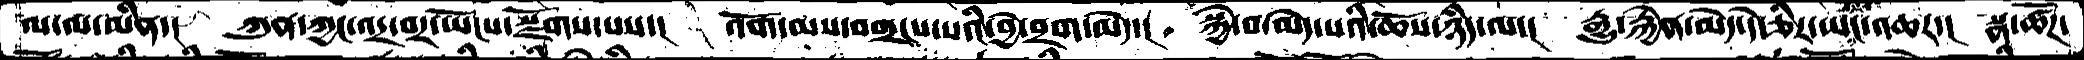ལ་ལ་མིན་།  ཀུན་ཀྱང་འདྲ་བར་ཡོངས་སྫོགས་པས་།  འོག་མས་བགྲངས་པའི་བྱེ་བྲག་མེད་།  སྐྱེ་བ་མེད་པའི་ཆོས་ཉིད་ལ་།  རྒྱུ་རྐྱེན་མེད་དེ་ཅིར་ཡང་འཆར་།  སྣ་ཚོཌ་
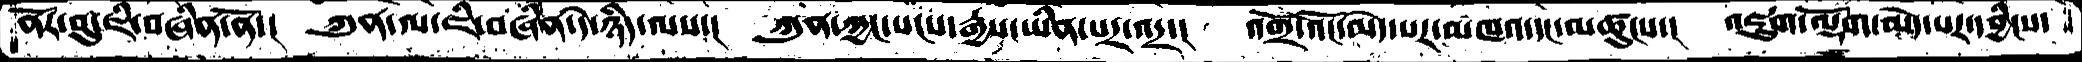ནོར་བུ་ཇི་བཞིན་ནོ་།   ཀུན་ལ་ཇི་བཞིན་དེ་ཉིད་ལས་།   ཀུན་ཀྱང་སངས་རྒྱས་ཡིན་པར་འདྲ་།   འགྲོ་འོང་མེད་པར་མཁའ་དང་མཚུངས་།   འཇུག་ལྡོག་མེད་པར་དབྱིངས་
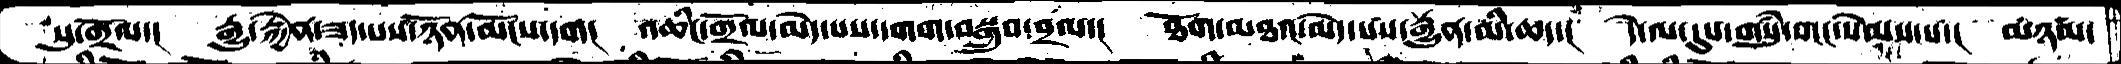སུ་གྲོལ་།   རྒྱུ་རྐྱེན་ཟད་པས་ཉོན་མོངས་དག།   འཆིང་གྲོལ་མེད་པས་དགག་བསྒྲུབ་བྲལ་།   ཐོག་མཐའ་མེད་པས་རྒྱུན་མི་ཆད་།   དེ་ལ་དུས་གསུཾ་གང་སེམས་པ་།   མཉམ་
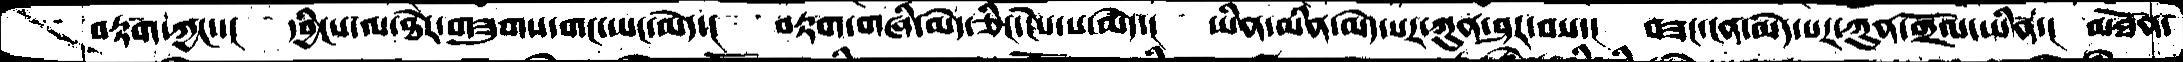བརྟག་ཀྱང་་།   དབྱིངས་ལ་ཐེར་གཟུགས་གང་ཡང་མེད་།   བརྟག་གཞི་མེད་ཅིང་ངེས་པ་མེད་།   ཡིན་མིན་མེད་པར་ཀུན་ཤར་བས་།   བཟང་ངན་མེད་པར་ཀུན་གྲོལ་ཡིན་།  མཐོན་
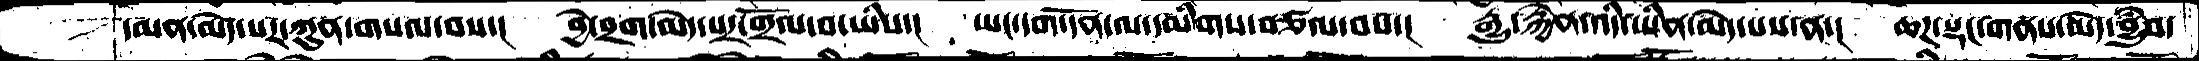དམན་མེད་པར་ཀུན་གསལ་བས་།   བྱེ་བྲག་མེད་པར་གྲོལ་བ་ཡིས་།   ཡང་དག་དོན་ལ་དམིགས་བཙལ་བས་།    རྒྱུ་རྐྱེན་འདི་ཡིན་མེད་པས་ན་།   ཆཌ་སྡང་གནས་མེད་བྱུཾབ་
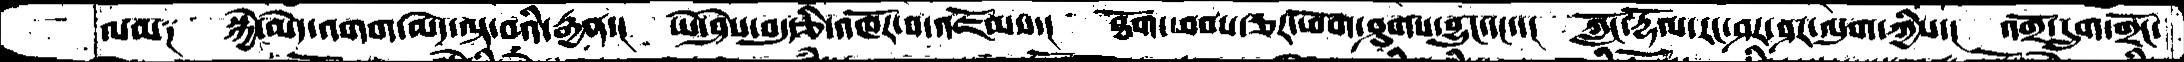ལམ༑  སྐྱེ་མེད་འགག་མེད་ལྟ་བའི་རྒྱན་།  ཡེ་ཤེས་བདུརྩི་འཁོར་བ་འཇོམས་།  ཐོག་ཕབས་ཅར་ཕོག་ཤུགས་བྱུང་དང་་།  ཀློང་རྡོལ་རང་ཤར་ཤར་ལུག་ཀྱིས་།  འགྲོ་དྲུག་གྲོང་
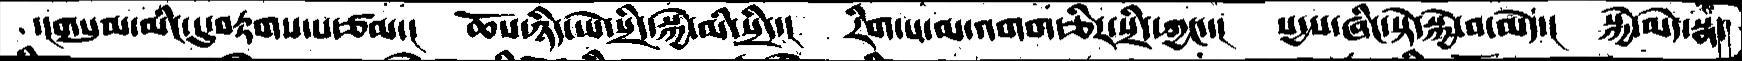་།གསུམ་མིང་དུ་བརྟགས་པ་ཙམ་།  ཆོས་ཉིད་ཡེ་སྲིད་སྐྱེ་མི་སྲིད་།  རིག་པ་མ་འགག་ཅིར་སྲིད་ཀྱང་་།  སདྱས་ཞིང་སྟེ་སྐྱེ་བ་མེད་།  སྐྱེ་མེད་སྣ་
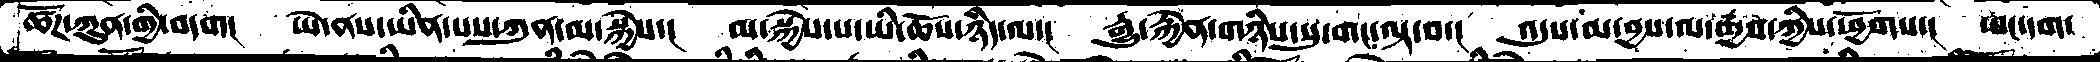ཚོཌ་ཀུན་གྱི་བདག།  ཡེ་ནས་ཡིན་པས་ཀུན་མ་སྐྱེས་།  མ་སྐྱེས་པ་ཡི་ཆོས་ཉིད་ལ་།  རྒྱུ་རྐྱེན་གཉིས་སུ་གང་ལྟ་བ་།  འདུས་མ་བྱས་ལ་རྒྱབ་ཀྱིས་ཕྱོགས་།  ཡང་དག་
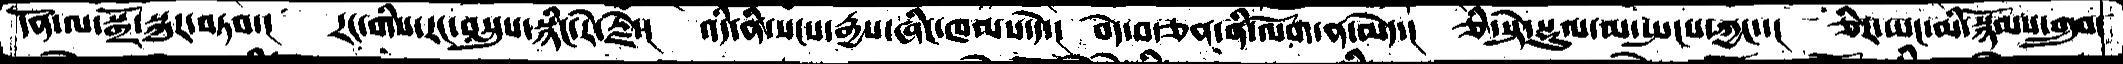དོན་ལ་སྒྲོ་སྐུར་བཏབ་།  རང་གིས་རང་བསླུས་སྙིང་རེ་རྗེ་།  འདི་ནི་སངས་རྒྱས་ཞིང་ཁམས་དེ་།  བདེ་བ་ཅན་ནི་ལོག་ན་མེད་།  ཅི་སྟེ་སྡུལ་མ་སྤངས་ཀྱང་་།  ཅིར་ཡང་མི་སྙོམས་གྲུབ་
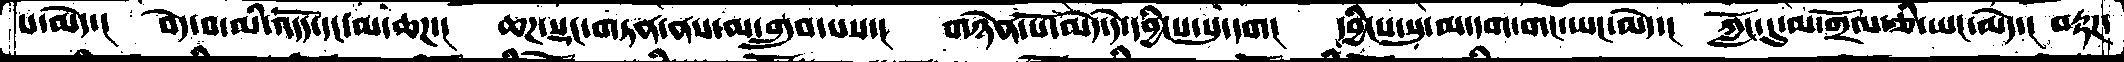པ་མེད་།  བདེ་བ་མི་འདོད་དང་མ་ཆཌ་།  ཆཌ་སྡང་གཏན་ནས་མ་གྲུབ་པས་།  གཉེན་པོ་མེད་དེ་དབྱིངས་སུ་དག།   དབྱིངས་སུ་མ་དག་གང་ཡང་མེད་།  ཀློང་དུ་མ་གྲོལ་ཅི་ཡང་མེད་།  བརྟཌ་
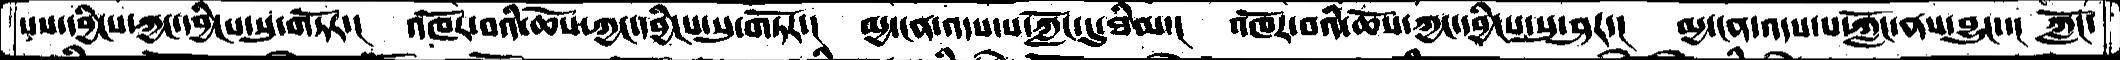པས་དབྱིངས་ཀྱང་དབྱིངས་སུ་གཏོར་།  འཁོར་བའི་ཆོས་ཀྱང་དབྱིངས་སུ་གཏོར་།  མྱ་ངན་འདས་པ་ཀློང་དུ་ཐིམ་།  འཁོར་བའི་ཆོས་ཀྱང་དབྱིངས་སུ་ཤར་།  མྱ་ངན་འདས་པ་ཀློང་ནས་བྱུང་་།  ཀློང་
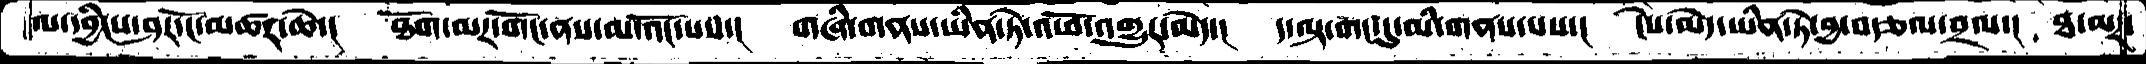ལ་དབྱིངས་ཤར་ངོ་མཚར་ཆེ་།  ཐོག་མར་གོང་ནས་མ་འོང་པས་།  གཞི་གནས་ཡིན་ཏེ་འཕོ་འགྱུར་མེད་།  ད་ལྟ་གང་དུ་མི་གནས་པས་།  ངེས་མེད་ཡིན་ཏེ་བྱ་བརྩལ་བྲལ་།  ཐ་མར་
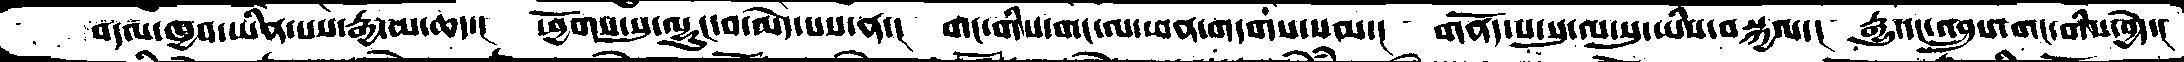བདལ་ཁྱབ་ཡིན་པས་རྒྱ་མ་ཆད་།  ཕྱོགས་སུ་ལྷུང་བ་མེད་པས་ན་།  གང་གིས་གང་ལ་ཕན་གདགས་སམ་།  གནོད་པ་སུ་ལ་སུ་ཡིས་བསྐྱལ་།  རྒྱུ་དང་འབྲུས་གང་གིས་བྱེད་།
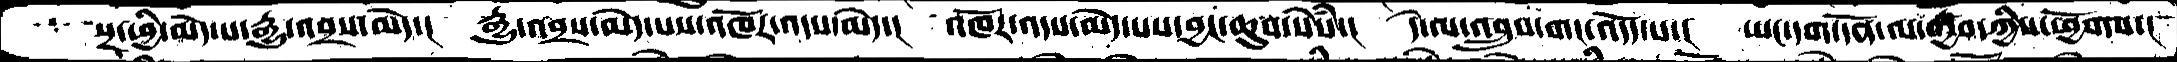སྔ་ཕྱི་མེད་པ་རྒྱུ་འབྲས་མེད་།   རྒྱུ་འབྲས་མེད་པས་འཁོར་འདས་མེད་།   འཁོར་འདས་མེད་པས་བྱང་ཆུབ་སེསཾ་།   དེ་ལ་འབྲུས་གང་འདོད་པ་།    ཡང་དག་དོན་ལ་རྒྱབ་ཀྱིས་ཕྱོགས་།
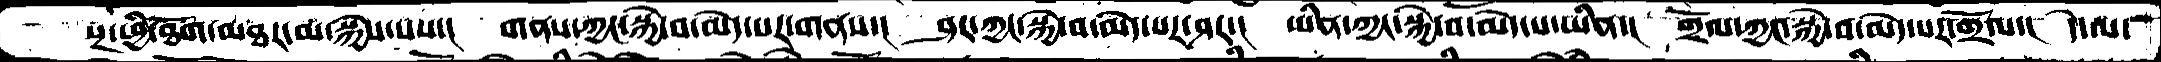སྔ་ཕྱི་ཐོག་མཐར་མ་སྐྱེས་པས་།   གནས་ཀྱང་སྐྱེ་བ་མེད་པར་གནས་།   ཤར་ཀྱང་སྐྱེ་བ་མེད་པར་ཤར་།   ཡིན་ཀྱང་སྐྱེ་བ་མེད་པ་ཡིན་།   གྲོལ་ཀྱང་སྐྱེ་བ་མེད་པར་གྲོལ་།  དེ་ལ་
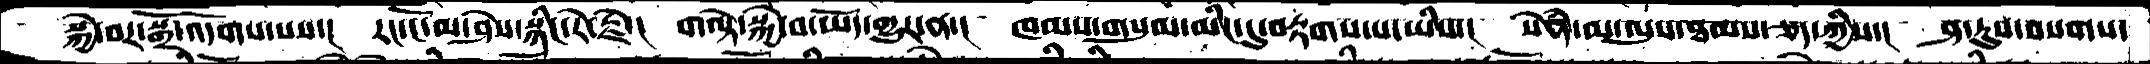སྐྱེ་བར་སྒྲོ་འདོགས་པས་།   རང་ངོ་མ་ཤེས་སྙིང་རེ་རྗེ་།   གལྟེ་སྐྱེ་བ་ཡོད་གྱུར་ན་།   ཁམས་གསུམ་མིང་དུ་བརྟགས་པ་ཡིས་།   སེནཾ་མ་ལུས་ཐམས་ཅད་ཀྱིས་།   ཤ་རུས་བསགས་
